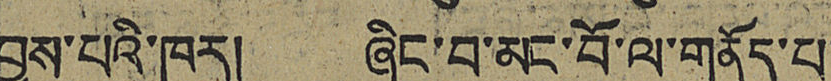བྱས་པའི་ཁར། ཞིང་བ་མང་བོ་ལ་གནོད་པ་
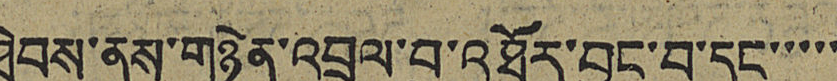ཐེབས་ནས་གཉེན་འབྲལ་བུ་འཐོར་བྱུང་བ་དང་་་་་
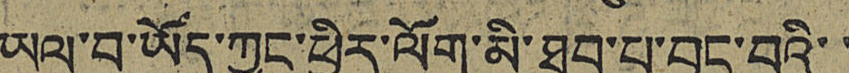ཡུལ་བ་ཡོད་ཀྱང་ཕྱིར་ལོག་མི་ཐུབ་པ་བྱུང་བའི་་
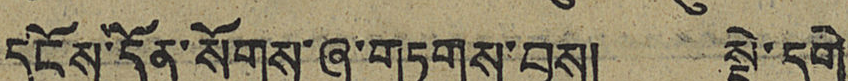དངོས་དོན་སོགས་ཞུ་གཏུགས་བྱས། སྡེ་དགེ་
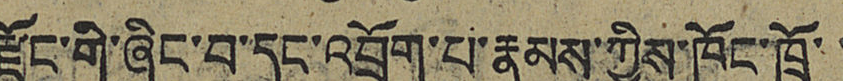རྫོང་གི་ཞིང་བ་དང་འབྲོག་པ་རྣམས་ཀྱིས་ཁོང་ཁྲོ་་
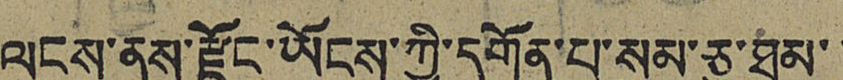ལངས་ནས་རྫོང་ཡོངས་ཀྱི་དགོན་པ་སུམ་ཅུ་ཐམ་་
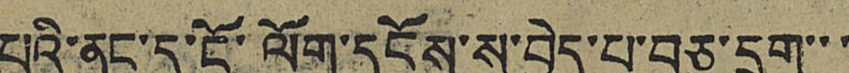པའི་ནང་དུ་ངོ་ལོག་དངོས་སུ་བྱེད་པ་བཅུ་དྲུག་་་
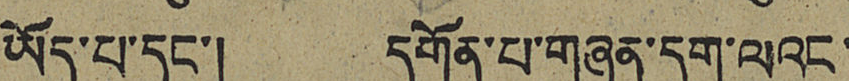ཡོད་པ་དང་། དགོན་པ་གཞན་དག་ལའང་
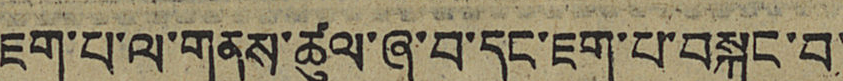ཇག་པ་ལ་གནས་ཚུལ་ཞུ་བ་དང་ཇག་པ་བསྐུང་བ་
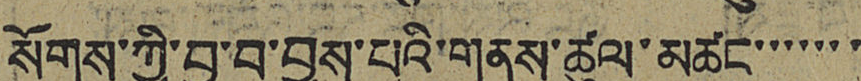སོགས་ཀྱི་བྱ་བ་བྱས་པའི་གནས་ཚུལ་མཚང་་་་་་་
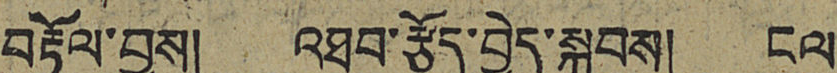བརྟོལ་བྱས། འཐབ་རྩོད་བྱེད་སྐབས། ངལ་
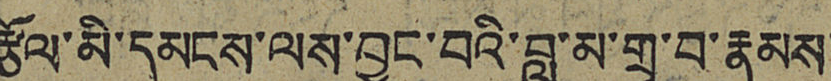རྩོལ་མི་དམངས་ལས་བྱུང་བའི་བླ་མ་གྲྭ་བ་རྣམས་
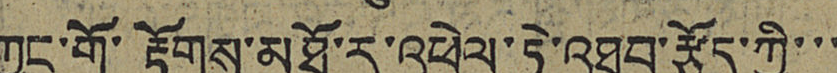ཀྱང་གོ་རྟོགས་མཐོ་རུ་འཕེལ་ཏེ་འཐབ་རྩོད་ཀྱི་་་
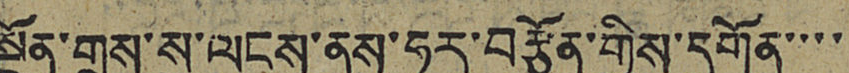སྔོན་གྲས་སུ་ལངས་ནས་ཧུར་བརྩོན་གྱིས་དགོན་་་་
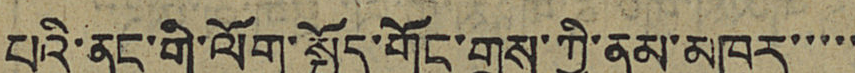པའི་ནང་གི་ལོག་སྤྱོད་གོང་གྲས་ཀྱི་ནམ་མཁར་་་་་
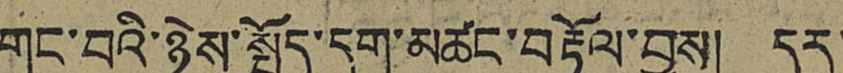གང་བའི་ཉེས་སྤྱོད་དག་མཚང་བརྟོལ་བྱས། དར་
